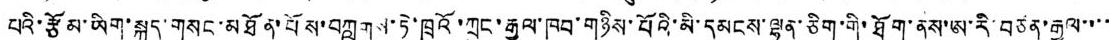པའི་རྩོམ་ཡིག་སྐད་གསང་མཐོན་པོས་བཀླགས་ཏེ་ཁྲའོ་ཀྲུང་རྒྱལ་ཁབ་གཉིས་པོའི་མི་དམངས་ལྷན་ཅིག་གི་ཐོག་ནས་ཨ་རི་བཙན་རྒྱལ་་་་
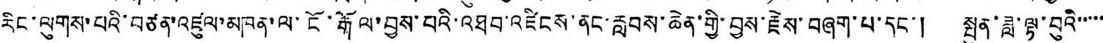རིང་ལུགས་པའི་བཙན་འཛུལ་མཁན་ལ་ངོ་རྒོལ་བྱས་པའི་འཐབ་འཛིངས་ནང་རླབས་ཆེན་གྱི་བྱས་རྗེས་བཞག་པ་དང་། སྤུན་ཟླ་ལྟ་བུའི་་་་་
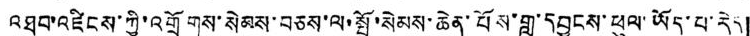འཐབ་འཛིངས་ཀྱི་འགྲོགས་སེམས་བཅས་ལ་སྤྲོ་སེམས་ཆེན་པོས་གླུ་དབྱངས་ཕུལ་ཡོད་པ་རེད།
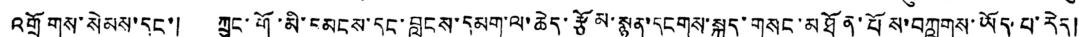འགྲོགས་སེམས་དང་། ཀྲུང་གོ་མི་དམངས་དང་བླངས་དམག་ལ་ཆེད་རྩོམ་སྙན་དངགས་སྐད་གསང་མཐོན་པོས་བཀླགས་ཡོད་པ་རེད།
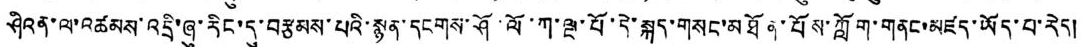ཤིའན་ལ་འཚམས་འདྲི་ཞུ་རིང་དུ་བརྩམས་པའི་སྙན་དངགས་ཤོ་ལོ་ཀ་ལྔ་པོ་དེ་སྐད་གསང་མཐོན་པོས་ཀློག་གནང་མཛད་ཡོད་པ་རེད།
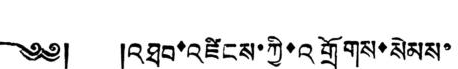༄༅། །འཐབ་འཛིངས་ཀྱི་འགྲོགས་སེམས་
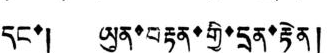དང་། ཡུན་བརྟན་གྱི་དྲན་རྟེན།
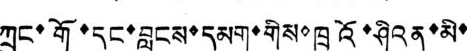ཀྲུང་གོ་དང་བླངས་དམག་གིས་ཁྲའོ་ཤིའན་མི་
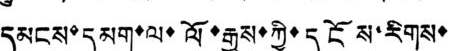དམངས་དམག་ལ་ལོ་རྒྱུས་ཀྱི་དངོས་རིགས་
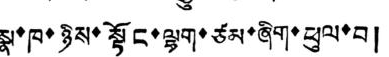སྣ་ཁ་ཉིས་སྟོང་ལྷག་ཙམ་ཞིག་ཕུལ་བ།
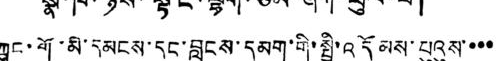ཀྲུང་གོ་མི་དམངས་དང་བླངས་དམག་གི་སྤྱི་འདོམས་པུའུས་་་
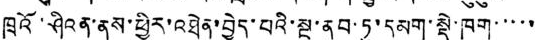ཁྲའོ་ཤིའན་ནས་ཕྱིར་འཐེན་བྱེད་པའི་སྔ་ནུབ་ཏུ་དམག་སྡེ་ཁག་་་་་
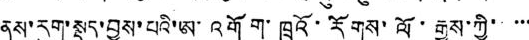ནས་རུག་སྡུར་བྱས་པའི་ཨ་འགོག་ཁྲའོ་རོགས་ལོ་རྒྱུས་ཀྱི་་་་་
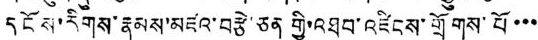དངོས་རིགས་རྣམས་མཛའ་བརྩེ་ཅན གྱི་འཐབ་འཛིངས་གྲོགས་པོ་་་
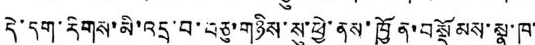དེ་དག་རིགས་མི་འདྲ་བ་བཅུ་གཉིས་སུ་ཕྱི་ནས་ཁྱོན་བསྡོམས་སྣ་ཁ་
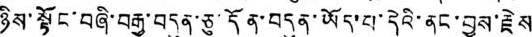ཉིས་སྟོང་བཞི་བརྒྱ་བདུན་ཅུ་དོན་བདུན་ཡོད་པ་དེའི་ནང་བྱས་རྗེས
